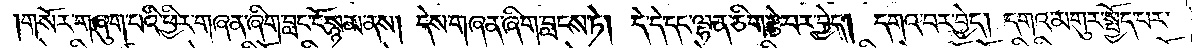གསོར་གཞུག་པའི་ཕྱིར་གཞན་ཞིག་བླང་ངོ་སྙམ་ནས། དེས་གཞན་ཞིག་བླངས་ཏེ། དེ་དེ་དང་ལྷན་ཅིག་རྩེ་བར་བྱེད། དགའ་བར་བྱེད། དགའ་མགུར་སྤྱོད་པར་
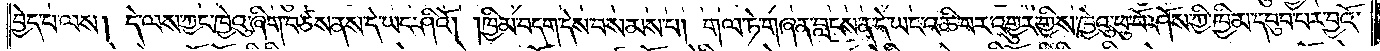བྱེད་པ་ལས། དེ་ལས་ཀྱང་ཁྱེའུ་ཞིག་བཙས་ནས་དེ་ཡང་ཤིའོ། །ཁྱིམ་བདག་དེས་བསམས་པ། གལ་ཏེ་གཞན་བླངས་ན་དེ་ཡང་འཆི་བར་འགྱུར་གྱིས་ཁྱེའུ་ཕུ་བོ་ཤོས་ཀྱི་ཁྱིམ་དབུབ་པར་བྱའོ་
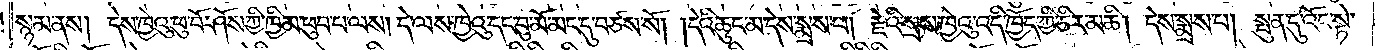སྙམ་ནས། དེས་ཁྱེའུ་ཕུ་བོ་ཤོས་ཀྱི་ཁྱིམ་ཕུབ་པ་ལས། དེ་ལས་ཁྱེའུ་དང་བུ་མོ་མང་དུ་བཙས་སོ། །དེའི་ཆུང་མ་དེས་སྨྲས་པ། རྗེའི་སྲས་ཁྱེའུ་འདི་ཁྱོད་ཀྱི་ཅིར་མཆི། དེས་སྨྲས་པ། སྤུན་དུ་འོང་སྟེ་
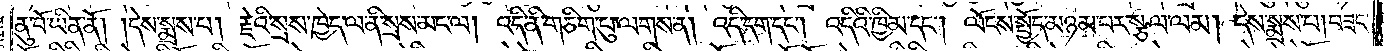ནུ་བོ་ཡིན་ནོ། །དེས་སྨྲས་པ། རྗེའི་སྲས་ཁྱེད་ལ་ནི་སྲས་མང་ལ། འདི་ནི་གཅིག་པུ་ལགས་ན། འདི་དག་དང༌། འདིའི་ཁྱིམ་དང༌། ལོངས་སྤྱོད་མཉམ་པར་སྩལ་ལམ། དེས་སྨྲས་པ། བཟང་
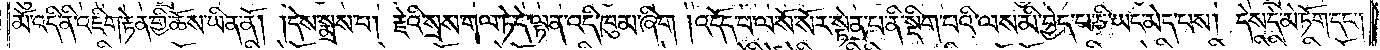མོ་འདི་ནི་འཇིག་རྟེན་གྱི་ཆོས་ཡིན་ནོ། །དེས་སྨྲས་པ། རྗེའི་སྲས་གལ་ཏེ་དེ་ལྟ་ན་འདི་ཁུམ་ཞིག །འདོད་པ་ལ་སོ་སོར་སྟེན་པ་ནི་སྡིག་པའི་ལས་མི་བྱེད་པ་ཅི་ཡང་མེད་པས། དེས་དེ་མེ་ཏོག་དང༌།
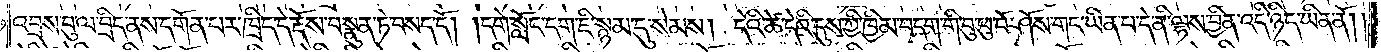འབྲས་བུ་ལ་བྲིད་ནས་དགོན་པར་ཁྲིད་དེ་རྡོས་བསྣུན་ཏེ་བསད་དོ། །དགེ་སློང་དག་ཇི་སྙམ་དུ་སེམས། དེའི་ཚེ་དེའི་དུས་ཀྱི་ཁྱིམ་བདག་གི་བུ་ཕུ་བོ་ཤོས་གང་ཡིན་པ་དེ་ནི་ལྷས་བྱིན་འདི་ཉིད་ཡིན་ནོ། །
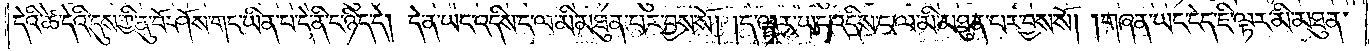དེའི་ཚེ་དེའི་དུས་ཀྱི་ནུ་བོ་ཤོས་གང་ཡིན་པ་དེ་ནི་ང་ཉིད་དེ། དེ་ན་ཡང་འདིས་ང་ལ་མི་མཐུན་པར་བྱས་སོ། །ད་ལྟར་ཡང་འདིས་ང་ལ་མི་མཐུན་པར་བྱས་སོ། །གཞན་ཡང་ངེད་ཇི་ལྟར་མི་མཐུན་
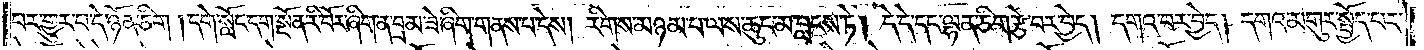པར་གྱུར་པ་དེ་ཉོན་ཅིག །དགེ་སློང་དག་སྔོན་རི་བོར་ཞིག་ན་བྲམ་ཟེ་ཞིག་གནས་པ་དེས། རིགས་མཉམ་པ་ལས་ཆུང་མ་བླངས་ཏེ། དེ་དེ་དང་ལྷན་ཅིག་རྩེ་བར་བྱེད། དགའ་བར་བྱེད། དགའ་མགུར་སྤྱོད་པར་
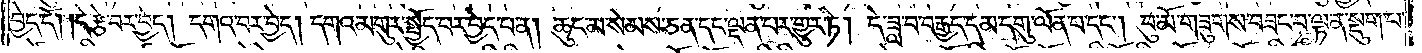བྱེད་དོ། །དེ་རྩེ་བར་བྱེད། དགའ་བར་བྱེད། དགའ་མགུར་སྤྱོད་པར་བྱེད་པ་ན། ཆུང་མ་སེམས་ཅན་དང་ལྡན་པར་གྱུར་ཏེ། དེ་ཟླ་བ་བརྒྱད་དམ་དགུ་ལོན་པ་དང༌། བུ་མོ་གཟུགས་བཟང་བ་ལྟ་ན་སྡུག་པ་
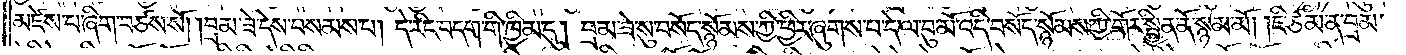མཛེས་པ་ཞིག་བཙས་སོ། །བྲམ་ཟེ་དེས་བསམས་པ། དེ་རིང་བདག་གི་ཁྱིམ་དུ། བྲམ་ཟེ་སུ་བསོད་སྙོམས་ཀྱི་ཕྱིར་ཞུགས་པ་དེ་ལ་བུ་མོ་འདི་བསོད་སྙོམས་ཀྱི་གོར་སྦྱིན་ནོ་སྙམ་མོ། །ཇི་ཙམ་ན་བྲམ་
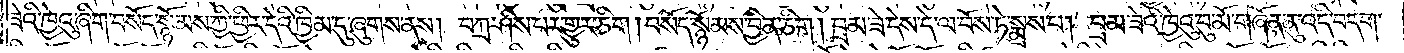ཟེའི་ཁྱེའུ་ཞིག་བསོད་སྙོམས་ཀྱི་ཕྱིར་དེའི་ཁྱིམ་དུ་ཞུགས་ནས། བཀྲ་ཤིས་པར་གྱུར་ཅིག །བསོད་སྙོམས་བྱིན་ཅིག །བྲམ་ཟེ་དེས་དེ་ལ་བོས་ཏེ་སྨྲས་པ། བྲམ་ཟེའི་ཁྱེའུ་བུ་མོ་གཞོན་ནུ་འདི་བདག་
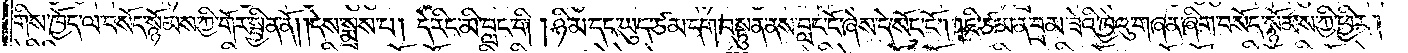གིས་ཁྱོད་ལ་བསོད་སྙོམས་ཀྱི་གོར་སྦྱིན་ནོ། །དེས་སྨྲས་པ། དེ་རིང་མི་བླང་གི །ཉི་མ་དང་ཡུད་ཙམ་དག་བསྟུན་ནས་བླང་ངོ་ཞེས་དེ་སོང་ངོ༌། །ཇི་ཙམ་ན་བྲམ་ཟེའི་ཁྱེའུ་གཞན་ཞིག་བསོད་སྙོམས་ཀྱི་ཕྱིར།
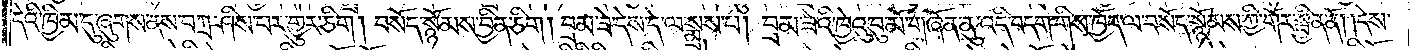དེའི་ཁྱིམ་དུ་ཞུགས་ནས་བཀྲ་ཤིས་པར་གྱུར་ཅིག །བསོད་སྙོམས་བྱིན་ཅིག །བྲམ་ཟེ་དེས་དེ་ལ་སྨྲས་པ། བྲམ་ཟེའི་ཁྱེའུ་བུ་མོ་གཞོན་ནུ་འདི་བདག་གིས་ཁྱོད་ལ་བསོད་སྙོམས་ཀྱི་གོར་སྦྱིན་ནོ། །དེས་
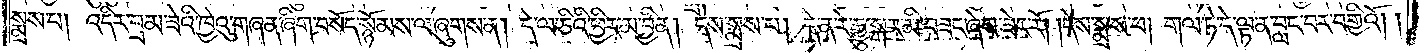སྨྲས་པ། འདིར་བྲམ་ཟེའི་ཁྱེའུ་གཞན་ཞིག་བསོད་སྙོམས་ལ་ཞུགས་ན། དེ་ལ་ཅིའི་ཕྱིར་མ་བྱིན། དེས་སྨྲས་པ། དེ་ན་རེ་རྒྱུ་སྐར་མི་བཟང་ཞེས་ཟེར་རོ། །དེས་སྨྲས་པ། གལ་ཏེ་དེ་ལྟ་ན་བླང་བར་བགྱིའོ། །
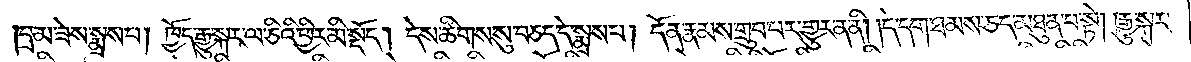།བྲམ་ཟེས་སྨྲས་པ། ཁྱོད་རྒྱུ་སྐར་ལ་ཅིའི་ཕྱིར་མི་སྡོད། དེས་ཚིགས་སུ་བཅད་དེ་སྨྲས་པ། དོན་རྣམས་གྲུབ་པར་གྱུར་ན་ནི། །དེ་དག་ཐམས་ཅད་མཐུན་པ་སྟེ། །རྒྱུ་སྐར་
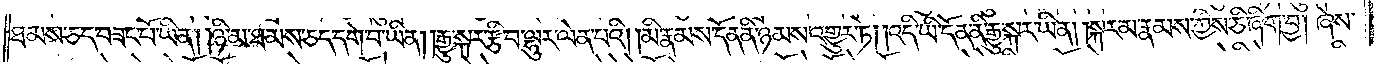ཐམས་ཅད་བཟང་པོ་ཡིན། །ཉི་མ་ཐམས་ཅད་དགེ་བ་ཡིན། །རྒྱུ་སྐར་རྩི་བ་ལྷུར་ལེན་པའི། །མི་རྣམས་དོན་ནི་ཉམས་འགྱུར་ཏེ། །འདི་ཡི་དོན་ནི་རྒྱུ་སྐར་ཡིན། །སྐར་མ་རྣམས་ཀྱིས་ཅི་ཞིག་བྱ། ཞེས་
